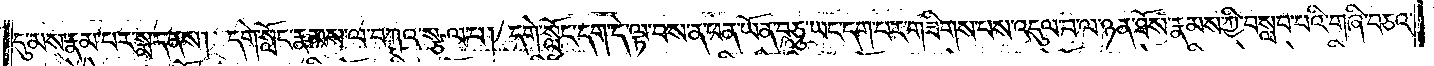དུ་མས་རྣམ་པར་སྨད་ནས། དགེ་སློང་རྣམས་ལ་བཀའ་སྩལ་པ། དགེ་སློང་དག་དེ་ལྟ་བས་ན་ཕན་ཡོན་བཅུ་ཡང་དག་པར་གཟིགས་པས་འདུལ་བ་ལ་ཉན་ཐོས་རྣམས་ཀྱི་བསླབ་པའི་གཞི་བཅའ་
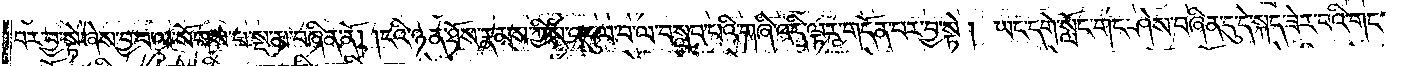བར་བྱ་སྟེ་ཞེས་བྱ་བ་ལ་སོགས་པ་སྔ་མ་བཞིན་ནོ། །ངའི་ཉན་ཐོས་རྣམས་ཀྱིས་འདུལ་བ་ལ་བསླབ་པའི་གཞི་འདི་ལྟར་གདོན་པར་བྱ་སྟེ། ཡང་དགེ་སློང་གང་ཤེས་བཞིན་དུ་དེ་སྐད་ཟེར་བའི་གང་
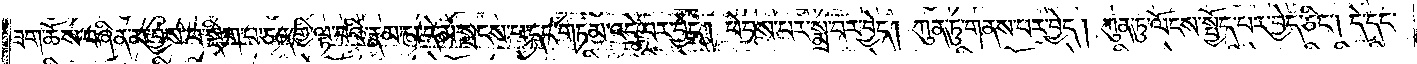ཟག་ཆོས་བཞིན་མ་བྱས་པ་སྡིག་པ་ཅན་གྱི་ལྟ་བའི་རྣམ་པ་དེ་མ་སྤངས་པ་དང་གཏམ་འདྲེ་བར་བྱེད། ཕེབས་པར་སྨྲ་བར་བྱེད། ཀུན་ཏུ་གནས་པར་བྱེད། ཀུན་ཏུ་ལོངས་སྤྱོད་པར་བྱེད་ཅིང༌། དེ་དང་
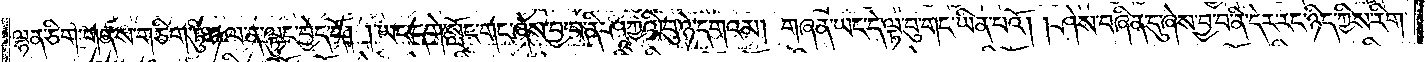ལྷན་ཅིག་གནས་གཅིག་ཏུ་ཉལ་ན་ལྟུང་བྱེད་དོ། །ཡང་དགེ་སློང་གང་ཞེས་བྱ་བ་ནི་ཤཱཀྱའི་བུ་ཉེ་དགའམ། གཞན་ཡང་དེ་ལྟ་བུ་གང་ཡིན་པའོ། །ཤེས་བཞིན་དུ་ཞེས་བྱ་བ་ནི་དེར་རང་ཉིད་ཀྱིས་རིག་
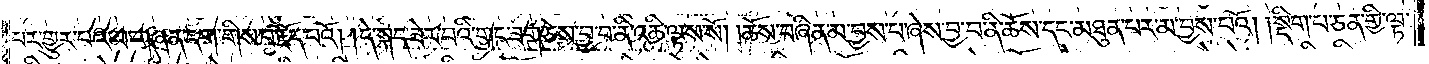པར་གྱུར་པའམ་གཞན་དག་གིས་བརྗོད་པའོ། །དེ་སྐད་ཟེར་བའི་གང་ཟག་ཅེས་བྱ་བ་ནི་འཆི་ལྟས་སོ། །ཆོས་བཞིན་མ་བྱས་པ་ཞེས་བྱ་བ་ནི་ཆོས་དང་མཐུན་པར་མ་བྱས་པའོ། །སྡིག་པ་ཅན་གྱི་ལྟ་
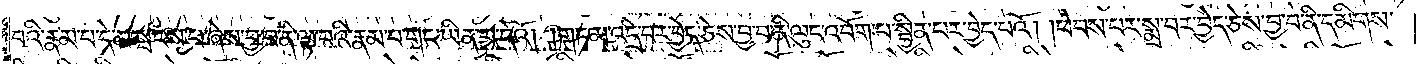བའི་རྣམ་པ་དེ་མ་སྤངས་པ་ཞེས་བྱ་བ་ནི་ལྟ་བའི་རྣམ་པ་གང་ཡིན་པ་དེའོ། །གཏམ་འདྲེ་བར་བྱེད་ཅེས་བྱ་བ་ནི་ལུང་འབོག་པ་སྦྱིན་པར་བྱེད་པའོ། །ཕེབས་པར་སྨྲ་བར་བྱེད་ཅེས་བྱ་བ་ནི་དམིགས་
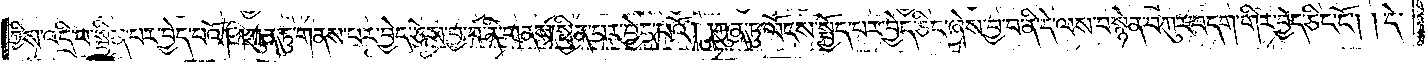ཀྱིས་འདྲི་བ་སྦྱིན་པར་བྱེད་པའོ། །ཀུན་ཏུ་གནས་པར་བྱེད་ཅེས་བྱ་བ་ནི་གནས་སྦྱིན་པར་བྱེད་པའོ། །ཀུན་ཏུ་ལོངས་སྤྱོད་པར་བྱེད་ཅིང་ཞེས་བྱ་བ་ནི་དེ་ལས་བསྙེན་བཀུར་བདག་གིར་བྱེད་ཅིང་ངོ༌། །དེ་
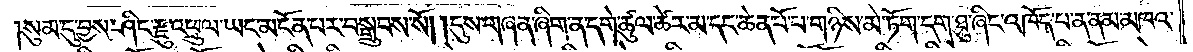སུམ་དུ་བྱས་ཤིང་རྫུ་འཕྲུལ་ཡང་མངོན་པར་བསྒྲུབས་སོ། །དུས་གཞན་ཞིག་ན་དགེ་ཚུལ་ཚེར་མ་དང་ཆེན་པོ་པ་གཉིས་མེ་ཏོག་དག་ཐུ་ཞིང་འཁོད་པ་ན་ནམ་མཁའ་
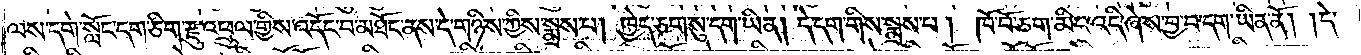ལས་དགེ་སློང་དག་ཅིག་རྫུ་འཕྲུལ་གྱིས་འདོང་བ་མཐོང་ནས་དེ་གཉིས་ཀྱིས་སྨྲས་པ། ཁྱེད་ཅག་སུ་དག་ཡིན། དེ་དག་གིས་སྨྲས་པ། ཁོ་བོ་ཅག་མིང་འདི་ཞེས་བྱ་བ་དག་ཡིན་ནོ། །དེ་
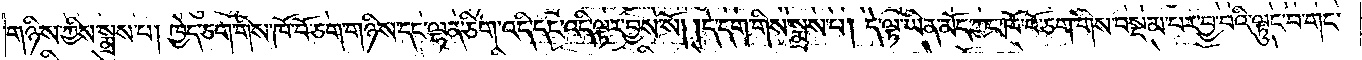གཉིས་ཀྱིས་སྨྲས་པ། ཁྱེད་ཅག་གིས་ཁོ་བོ་ཅག་གཉིས་དང་ལྷན་ཅིག་འདི་དང་འདི་ལྟར་བྱས་སོ། །དེ་དག་གིས་སྨྲས་པ། དེ་ལྟ་ཡིན་མོད་ཀྱང་ཁོ་བོ་ཅག་གིས་བསྡམ་པར་བྱ་བའི་ལྟུང་བ་གང་
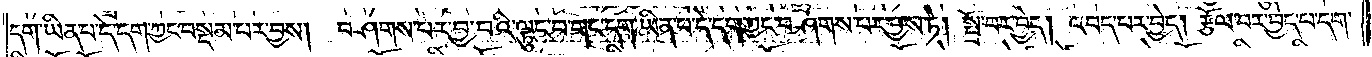དག་ཡིན་པ་དེ་དག་ཀྱང་བསྡམ་པར་བྱས། བཤགས་པར་བྱ་བའི་ལྟུང་བ་གང་དག་ཡིན་པ་དེ་དག་ཀྱང་བཤགས་པར་བྱས་ཏེ། སྤྲོ་བར་བྱེད། འབད་པར་བྱེད། རྩོལ་བར་བྱེད་པ་དག་
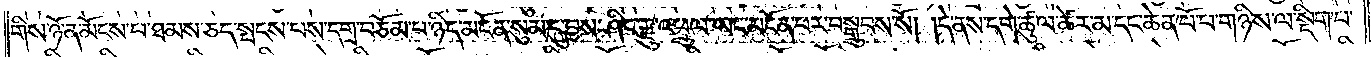གིས་ཉོན་མོངས་པ་ཐམས་ཅད་སྤངས་པས་དགྲ་བཅོམ་པ་ཉིད་མངོན་སུམ་དུ་བྱས་ཤིང་རྫུ་འཕྲུལ་ཡང་མངོན་པར་བསྒྲུབས་སོ། །དེ་ནས་དགེ་ཚུལ་ཚེར་མ་དང་ཆེན་པོ་པ་གཉིས་ལ་སྡིག་པ་
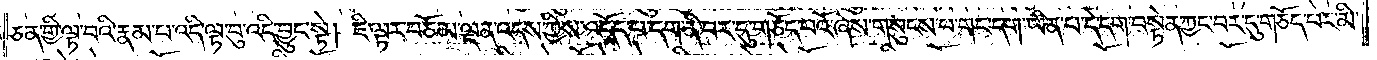ཅན་གྱི་ལྟ་བའི་རྣམ་པ་འདི་ལྟ་བུ་འདི་བྱུང་སྟེ། ཇི་ལྟར་བཅོམ་ལྡན་འདས་ཀྱིས་འདོད་པ་དག་ནི་བར་དུ་གཅོད་པའོ་ཞེས་གསུངས་པ་གང་དག་ཡིན་པ་དེ་དག་བསྟེན་ཀྱང་བར་དུ་གཅོད་པར་མི་
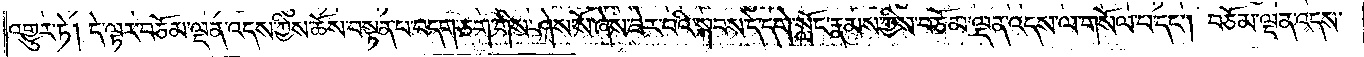འགྱུར་ཏེ། དེ་ལྟར་བཅོམ་ལྡན་འདས་ཀྱིས་ཆོས་བསྟན་པ་བདག་ཅག་གིས་ཤེས་སོ་ཞེས་ཟེར་བའི་སྐབས་དེ་དགེ་སློང་རྣམས་ཀྱིས་བཅོམ་ལྡན་འདས་ལ་གསོལ་པ་དང༌། བཅོམ་ལྡན་འདས་
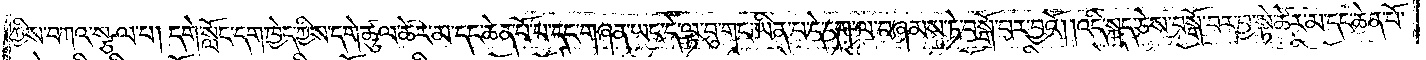ཀྱིས་བཀའ་སྩལ་པ། དགེ་སློང་དག་ཁྱེད་ཀྱིས་དགེ་ཚུལ་ཚེར་མ་དང་ཆེན་པོ་པ་དང་གཞན་ཡང་དེ་ལྟ་བུ་གང་ཡིན་པ་དེ་དག་ལ་བཞམས་ཏེ་བསྒོ་བར་བྱའོ། །འདི་སྐད་ཅེས་བསྒོ་བར་བྱ་སྟེ་ཚེར་མ་དང་ཆེན་པོ་
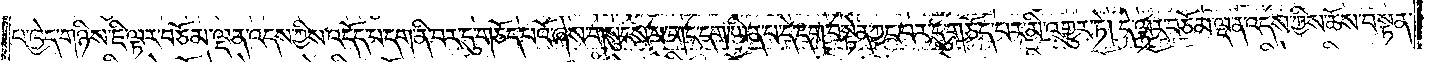པ་ཁྱེད་གཉིས་ཇི་ལྟར་བཅོམ་ལྡན་འདས་ཀྱིས་འདོད་པ་དག་ནི་བར་དུ་གཅོད་པའོ་ཞེས་གསུངས་པ་གང་དག་ཡིན་པ་དེ་དག་བསྟེན་ཀྱང་བར་དུ་གཅོད་པར་མི་འགྱུར་ཏེ། དེ་ལྟར་བཅོམ་ལྡན་འདས་ཀྱིས་ཆོས་བསྟན་
